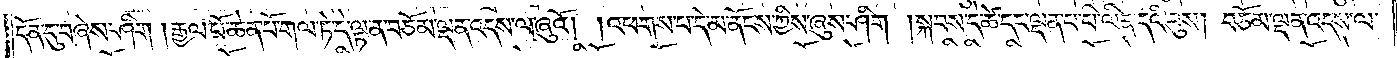དོན་དུ་བཞེས་ཤིག །རྒྱལ་པོ་ཆེན་པོ་གལ་ཏེ་དེ་ལྟ་ན་བཅོམ་ལྡན་འདས་ལ་ཞུའོ། །འཕགས་པ་དེ་མ་ནོངས་ཀྱིས་ཞུས་ཤིག །སྐབས་དེ་ཚེ་དང་ལྡན་པ་པི་ལིན་དའི་བུས། བཅོམ་ལྡན་འདས་ལ་
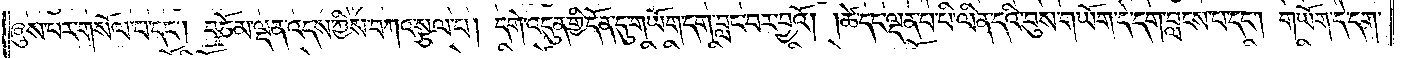ཞུས་པར་གསོལ་པ་དང༌། བཅོམ་ལྡན་འདས་ཀྱིས་བཀའ་སྩལ་པ། དགེ་འདུན་གྱི་དོན་དུ་གཡོག་དག་བླང་བར་བྱའོ། །ཚེ་དང་ལྡན་པ་པི་ལིན་དའི་བུས་གཡོག་དེ་དག་བླངས་པ་དང༌། གཡོག་དེ་དག་
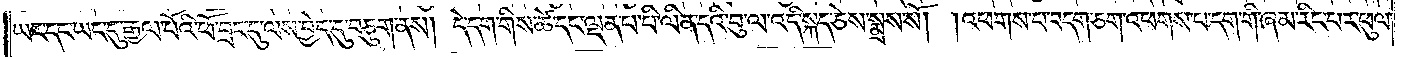ཡང་དང་ཡང་དུ་རྒྱལ་པོའི་ཕོ་བྲང་དུ་ལས་བྱེད་དུ་བཅུག་ནས། དེ་དག་གིས་ཚེ་དང་ལྡན་པ་པི་ལིན་དའི་བུ་ལ་འདི་སྐད་ཅེས་སྨྲས་སོ། །འཕགས་པ་བདག་ཅག་འཕགས་པ་དག་གི་ཞམ་རིང་པར་ཕུལ་
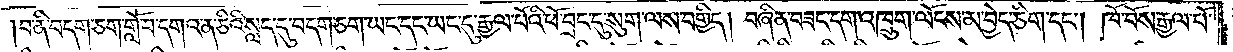བ་ནི་བདག་ཅག་གློ་བ་དགའ་ན་ཅིའི་སླད་དུ་བདག་ཅག་ཡང་དང་ཡང་དུ་རྒྱལ་པོའི་ཕོ་བྲང་དུ་སུག་ལས་བགྱིད། བཞིན་བཟང་དག་འཁྲུག་ལོངས་མ་བྱེད་ཅིག་དང༌། ཁོ་བོས་རྒྱལ་པོ་
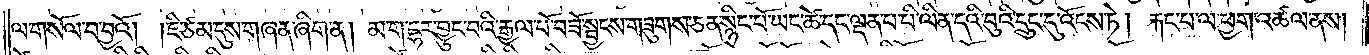ལ་གསོལ་བ་བྱའོ། །ཇི་ཙམ་དུས་གཞན་ཞིག་ན། མ་ག་དྷར་བྱུང་བའི་རྒྱལ་པོ་བཟོ་སྦྱངས་གཟུགས་ཅན་སྙིང་པོ་ཡང་ཚེ་དང་ལྡན་པ་བི་ལིན་དའི་བུའི་དྲུང་དུ་འོངས་ཏེ། རྐང་པ་ལ་ཕྱག་འཚལ་ནས།
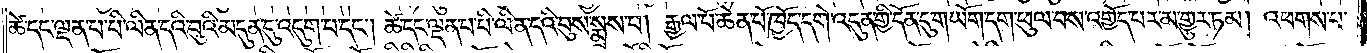ཚེ་དང་ལྡན་པ་པི་ལིན་དའི་བུའི་མདུན་དུ་འདུག་པ་དང༌། ཚེ་དང་ལྡན་པ་པི་ལིན་དའི་བུས་སྨྲས་པ། རྒྱལ་པོ་ཆེན་པོ་ཁྱོད་དགེ་འདུན་གྱི་དོན་དུ་གཡོག་དག་ཕུལ་བས་འགྱོད་པར་མ་གྱུར་ཏམ། འཕགས་པ་
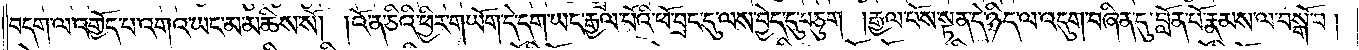བདག་ལ་འགྱོད་པ་འགའ་ཡང་མ་མཆིས་སོ། །འོ་ན་ཅིའི་ཕྱིར་གཡོག་དེ་དག་ཡང་རྒྱལ་པོའི་ཕོ་བྲང་དུ་ལས་བྱེད་དུ་བཅུག །རྒྱལ་པོས་སྟན་དེ་ཉིད་ལ་འདུག་བཞིན་དུ་བློན་པོ་རྣམས་ལ་བསྒོ་བ།
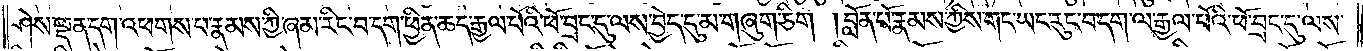ཤེས་ལྡན་དག་འཕགས་པ་རྣམས་ཀྱི་ཞམ་རིང་བ་དག་ཕྱིན་ཆད་རྒྱལ་པོའི་ཕོ་བྲང་དུ་ལས་བྱེད་དུ་མ་གཞུག་ཅིག །བློན་པོ་རྣམས་ཀྱིས་གང་ཡང་རུང་བ་དག་ལ་རྒྱལ་པོའི་ཕོ་བྲང་དུ་ལས་
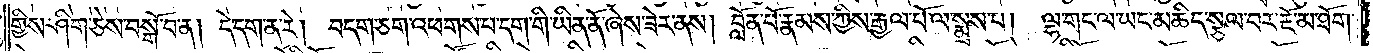གྱིས་ཤིག་ཅེས་བསྒོ་བ་ན། དེ་དག་ན་རེ། བདག་ཅག་འཕགས་པ་དག་གི་ཡིན་ནོ་ཞེས་ཟེར་ནས། བློན་པོ་རྣམས་ཀྱིས་རྒྱལ་པོ་ལ་སྨྲས་པ། ལྷ་གང་ལ་ཡང་མཆིད་སྩལ་བར་རྔོ་མ་ཐོག་
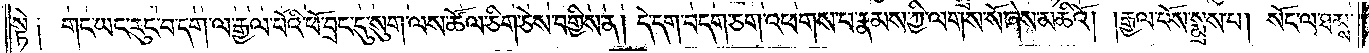སྟེ༑ གང་ཡང་རུང་བ་དག་ལ་རྒྱལ་པོའི་ཕོ་བྲང་དུ་སུག་ལས་ཚོལ་ཅིག་ཅེས་བགྱིས་ན། དེ་དག་བདག་ཅག་འཕགས་པ་རྣམས་ཀྱི་ལགས་སོ་ཞེས་མཆིའོ། །རྒྱལ་པོས་སྨྲས་པ། སོང་ལ་ཐམས་
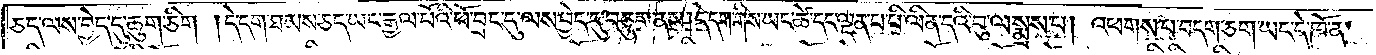ཅད་ལས་བྱེད་དུ་ཆུག་ཅིག །དེ་དག་ཐམས་ཅད་ཡང་རྒྱལ་པོའི་ཕོ་བྲང་དུ་ལས་བྱེད་དུ་བཅུག་ནས། དེ་དག་གིས་ཡང་ཚེ་དང་ལྡན་པ་པི་ལིན་དའི་བུ་ལ་སྨྲས་པ། འཕགས་པ་བདག་ཅག་ཡང་དེ་ཁོ་ན་
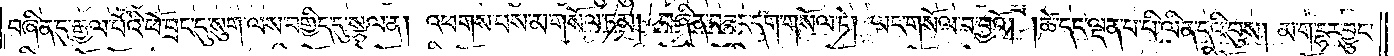བཞིན་དུ་རྒྱལ་པོའི་ཕོ་བྲང་དུ་སུག་ལས་བགྱིད་དུ་སྩལ་ན། འཕགས་པས་མ་གསོལ་ཏམ། བཞིན་བཟང་དག་གསོལ་ཏེ། ཡང་གསོལ་བ་བྱའོ། །ཚེ་དང་ལྡན་པ་པི་ལིན་དའི་བུས། མ་ག་དྷར་བྱུང་
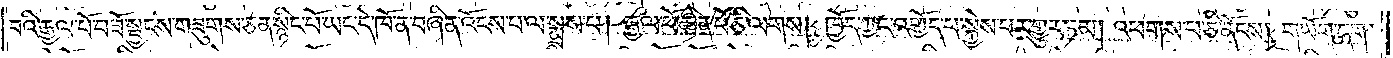བའི་རྒྱལ་པོ་བཟོ་སྦྱངས་གཟུགས་ཅན་སྙིང་པོ་ཡང་དེ་ཁོ་ན་བཞིན་འོངས་པ་ལ་སྨྲས་པ། རྒྱལ་པོ་ཆེན་པོ་ཅི་ལགས། ཁྱོད་ཀྱང་འགྱོད་པ་སྐྱེས་པར་གྱུར་ཏམ། འཕགས་པ་ཅི་ནོངས། གཡོག་དག་
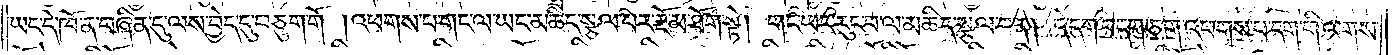ཡང་དེ་ཁོ་ན་བཞིན་དུ་ལས་བྱེད་དུ་བཅུག་གོ །འཕགས་པ་གང་ལ་ཡང་མཆིད་སྩལ་པར་རྔོ་མ་ཐོག་སྟེ། གང་ཡང་རུང་བ་ལ་མཆིད་སྩལ་བ་ན། དེ་དག་བདག་ཅག་འཕགས་པ་དག་གི་ལགས་
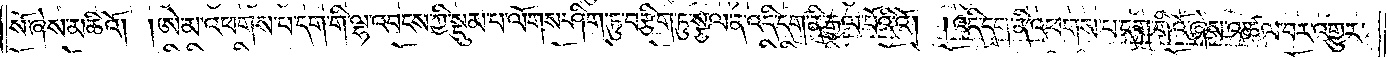སོ་ཞེས་མཆིའོ། །ཨེ་མ་འཕགས་པ་དག་གི་ལྷ་འབངས་ཀྱི་སྡུམ་པ་ལོགས་ཤིག་ཏུ་བརྩིག་ཏུ་སྩལ་ན་འདི་དག་ནི་རྒྱལ་པོའི་འོ། །འདི་དག་ནི་འཕགས་པ་དག་གིའོ་ཞེས་འཚལ་བར་འགྱུར་
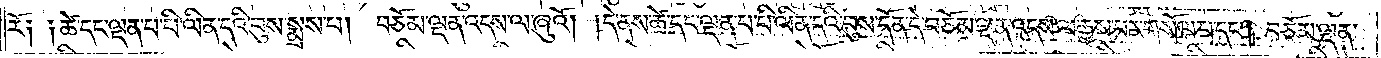རོ༑ ༑ཚེ་དང་ལྡན་པ་པི་ལིན་དའི་བུས་སྨྲས་པ། བཅོམ་ལྡན་འདས་ལ་ཞུའོ། །དེ་ནས་ཚེ་དང་ལྡན་པ་པི་ལིན་དའི་བུས་དོན་དེ་བཅོམ་ལྡན་འདས་ལ་རྒྱས་པར་གསོལ་པ་དང༌། བཅོམ་ལྡན་
